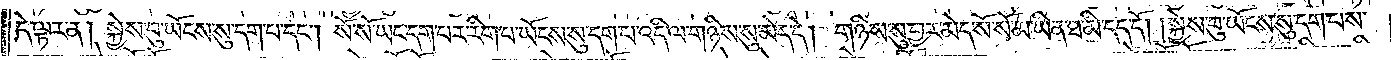དེ་ལྟར་ན། སྐྱེས་བུ་ཡོངས་སུ་དག་པ་དང༌། སོ་སོ་ཡང་དག་པར་རིག་པ་ཡོངས་སུ་དག་པ་འདི་ལ་གཉིས་སུ་མེད་དེ། གཉིས་སུ་བྱར་མེད་སོ་སོ་མ་ཡིན་ཐ་མི་དད་དོ། །སྐྱེས་བུ་ཡོངས་སུ་དག་པས་
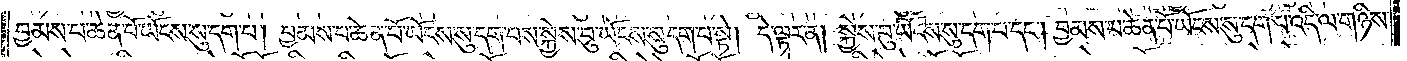བྱམས་པ་ཆེན་པོ་ཡོངས་སུ་དག་པ། བྱམས་པ་ཆེན་པོ་ཡོངས་སུ་དག་པས་སྐྱེས་བུ་ཡོངས་སུ་དག་པ་སྟེ། དེ་ལྟར་ན། སྐྱེས་བུ་ཡོངས་སུ་དག་པ་དང༌། བྱམས་པ་ཆེན་པོ་ཡོངས་སུ་དག་པ་འདི་ལ་གཉིས་
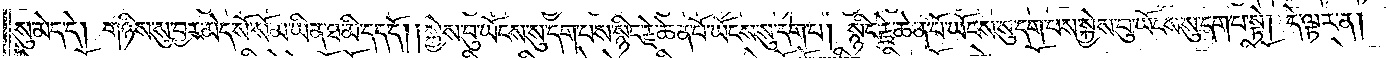སུ་མེད་དེ། གཉིས་སུ་བྱར་མེད་སོ་སོ་མ་ཡིན་ཐ་མི་དད་དོ། །སྐྱེས་བུ་ཡོངས་སུ་དག་པས་སྙིང་རྗེ་ཆེན་པོ་ཡོངས་སུ་དག་པ། སྙིང་རྗེ་ཆེན་པོ་ཡོངས་སུ་དག་པས་སྐྱེས་བུ་ཡོངས་སུ་དག་པ་སྟེ། དེ་ལྟར་ན།
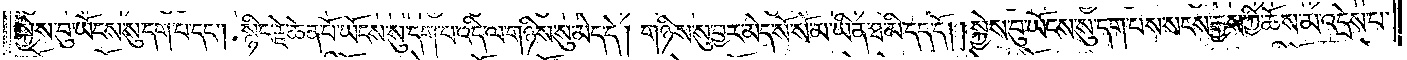སྐྱེས་བུ་ཡོངས་སུ་དག་པ་དང༌། སྙིང་རྗེ་ཆེན་པོ་ཡོངས་སུ་དག་པ་འདི་ལ་གཉིས་སུ་མེད་དེ། གཉིས་སུ་བྱར་མེད་སོ་སོ་མ་ཡིན་ཐ་མི་དད་དོ། །སྐྱེས་བུ་ཡོངས་སུ་དག་པས་སངས་རྒྱས་ཀྱི་ཆོས་མ་འདྲེས་པ་
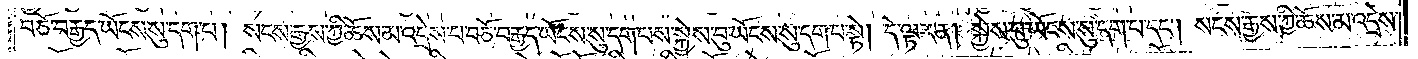བཅོ་བརྒྱད་ཡོངས་སུ་དག་པ། སངས་རྒྱས་ཀྱི་ཆོས་མ་འདྲེས་པ་བཅོ་བརྒྱད་ཡོངས་སུ་དག་པས་སྐྱེས་བུ་ཡོངས་སུ་དག་པ་སྟེ། དེ་ལྟར་ན། སྐྱེས་བུ་ཡོངས་སུ་དག་པ་དང༌། སངས་རྒྱས་ཀྱི་ཆོས་མ་འདྲེས་
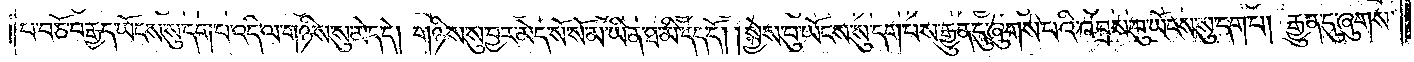པ་བཅོ་བརྒྱད་ཡོངས་སུ་དག་པ་འདི་ལ་གཉིས་སུ་མེད་དེ། གཉིས་སུ་བྱར་མེད་སོ་སོ་མ་ཡིན་ཐ་མི་དད་དོ། །སྐྱེས་བུ་ཡོངས་སུ་དག་པས་རྒྱུན་དུ་ཞུགས་པའི་འབྲས་བུ་ཡོངས་སུ་དག་པ། རྒྱུན་དུ་ཞུགས་
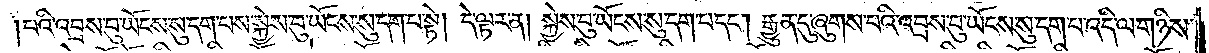པའི་འབྲས་བུ་ཡོངས་སུ་དག་པས་སྐྱེས་བུ་ཡོངས་སུ་དག་པ་སྟེ། དེ་ལྟར་ན། སྐྱེས་བུ་ཡོངས་སུ་དག་པ་དང༌། རྒྱུན་དུ་ཞུགས་པའི་འབྲས་བུ་ཡོངས་སུ་དག་པ་འདི་ལ་གཉིས་
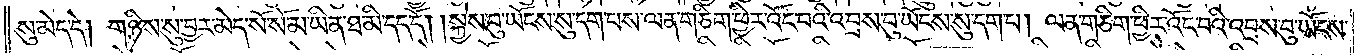སུ་མེད་དེ། གཉིས་སུ་བྱར་མེད་སོ་སོ་མ་ཡིན་ཐ་མི་དད་དོ། །སྐྱེས་བུ་ཡོངས་སུ་དག་པས་ལན་ཅིག་ཕྱིར་འོང་བའི་འབྲས་བུ་ཡོངས་སུ་དག་པ། ལན་ཅིག་ཕྱིར་འོང་བའི་འབྲས་བུ་ཡོངས་
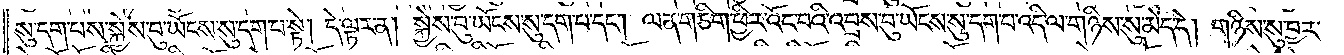སུ་དག་པས་སྐྱེས་བུ་ཡོངས་སུ་དག་པ་སྟེ། དེ་ལྟར་ན། སྐྱེས་བུ་ཡོངས་སུ་དག་པ་དང༌། ལན་ཅིག་ཕྱིར་འོང་བའི་འབྲས་བུ་ཡོངས་སུ་དག་པ་འདི་ལ་གཉིས་སུ་མེད་དེ། གཉིས་སུ་བྱར་
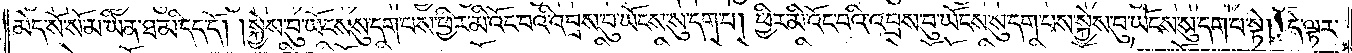མེད་སོ་སོ་མ་ཡིན་ཐ་མི་དད་དོ། །སྐྱེས་བུ་ཡོངས་སུ་དག་པས་ཕྱིར་མི་འོང་བའི་འབྲས་བུ་ཡོངས་སུ་དག་པ། ཕྱིར་མི་འོང་བའི་འབྲས་བུ་ཡོངས་སུ་དག་པས་སྐྱེས་བུ་ཡོངས་སུ་དག་པ་སྟེ། །དེ་ལྟར་
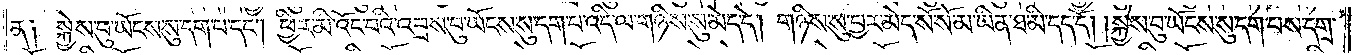ན༑ སྐྱེས་བུ་ཡོངས་སུ་དག་པ་དང༌། ཕྱིར་མི་འོང་བའི་འབྲས་བུ་ཡོངས་སུ་དག་པ་འདི་ལ་གཉིས་སུ་མེད་དེ། གཉིས་སུ་བྱར་མེད་སོ་སོ་མ་ཡིན་ཐ་མི་དད་དོ། །སྐྱེས་བུ་ཡོངས་སུ་དག་པས་དགྲ་
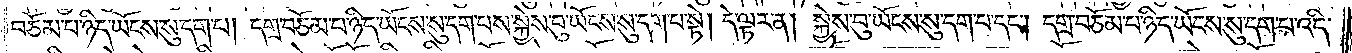བཅོམ་པ་ཉིད་ཡོངས་སུ་དག་པ། དགྲ་བཅོམ་པ་ཉིད་ཡོངས་སུ་དག་པས་སྐྱེས་བུ་ཡོངས་སུ་དག་པ་སྟེ། དེ་ལྟར་ན། སྐྱེས་བུ་ཡོངས་སུ་དག་པ་དང༌། དགྲ་བཅོམ་པ་ཉིད་ཡོངས་སུ་དག་པ་འདི་
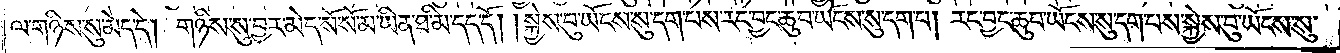ལ་གཉིས་སུ་མེད་དེ། གཉིས་སུ་བྱར་མེད་སོ་སོ་མ་ཡིན་ཐ་མི་དད་དོ། །སྐྱེས་བུ་ཡོངས་སུ་དག་པས་རང་བྱང་ཆུབ་ཡོངས་སུ་དག་པ། རང་བྱང་ཆུབ་ཡོངས་སུ་དག་པས་སྐྱེས་བུ་ཡོངས་སུ་
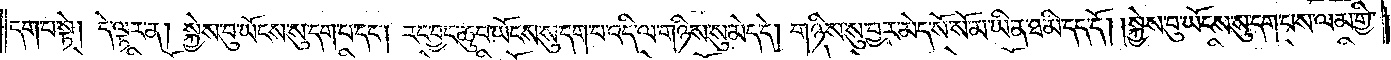དག་པ་སྟེ། དེ་ལྟར་ན། སྐྱེས་བུ་ཡོངས་སུ་དག་པ་དང༌། རང་བྱང་ཆུབ་ཡོངས་སུ་དག་པ་འདི་ལ་གཉིས་སུ་མེད་དེ། གཉིས་སུ་བྱར་མེད་སོ་སོ་མ་ཡིན་ཐ་མི་དད་དོ། །སྐྱེས་བུ་ཡོངས་སུ་དག་པས་ལམ་གྱི་
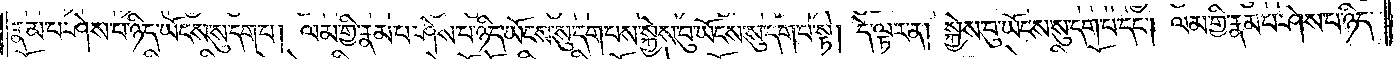རྣམ་པ་ཤེས་པ་ཉིད་ཡོངས་སུ་དག་པ། ལམ་གྱི་རྣམ་པ་ཤེས་པ་ཉིད་ཡོངས་སུ་དག་པས་སྐྱེས་བུ་ཡོངས་སུ་དག་པ་སྟེ། དེ་ལྟར་ན། སྐྱེས་བུ་ཡོངས་སུ་དག་པ་དང༌། ལམ་གྱི་རྣམ་པ་ཤེས་པ་ཉིད་
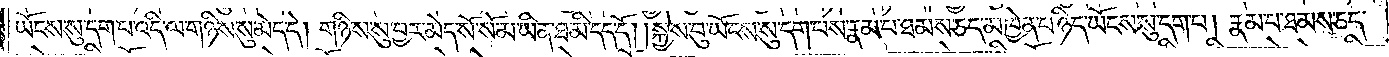ཡོངས་སུ་དག་པ་འདི་ལ་གཉིས་སུ་མེད་དེ། གཉིས་སུ་བྱར་མེད་སོ་སོ་མ་ཡིན་ཐ་མི་དད་དོ། །སྐྱེས་བུ་ཡོངས་སུ་དག་པས་རྣམ་པ་ཐམས་ཅད་མཁྱེན་པ་ཉིད་ཡོངས་སུ་དག་པ། རྣམ་པ་ཐམས་ཅད་
